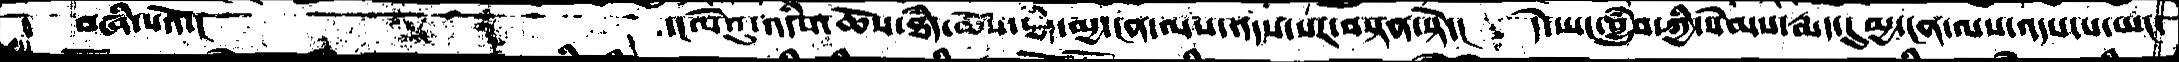བཞི་པའོ་།    ་།ལེའུ་འདིསཆོས་ཐཾད་ཆོས་ཐཾད་ཆོས་ཐཾད་མྱ་ངན་ལས་འདས་པར་བསྟན་སྟེ་། དེ་ཡང་བྱུཾབ་ཀྱི་སེམས་རྨད་དུ་མྱ་ངན་ལས་འདས་པ་མང་
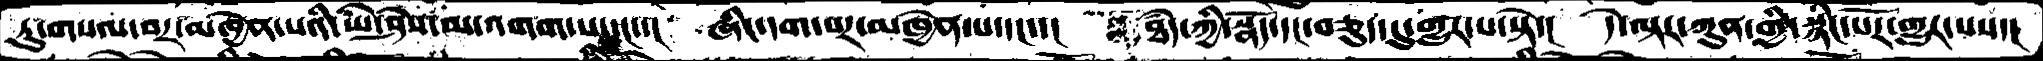ཏུ་གསལ་བར་མཁྱེན་པའི་ཡེ་ཤེས་མ་འགག་པ་དང་་།  ཞིང་དག་པར་མཁྱེན་པ་དང་་།  ཐཾད་ཀྱི་སྣོད་དང་བཅུད་དུ་གྱུར་པ་སྟེ་།  དེ་ལྟར་ཀུན་གྱི་སྙིང་པོར་གྱུར་པས་།
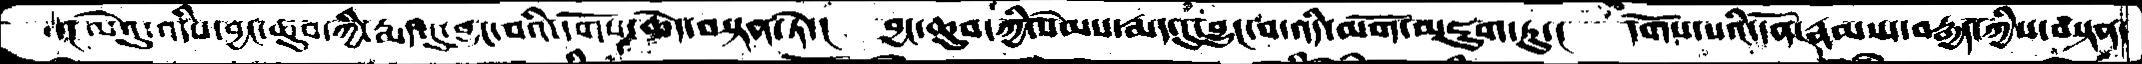་།ལེའུ་འདིས་བྱང་ཆུབ་ཀྱི་རྨད་དུ་བྱུང་བའི་དགོས་ཆེད་བསྟན་ཏེ་། བྱང་ཆུབ་ཀྱི་སེམས་རྨད་དུ་བྱུང་བ་འདི་མགོ་མཇུག་ཏུ་།  དགོས་པའི་དོན་རྣམས་བརྒྱད་ཀྱིས་བསྟན་
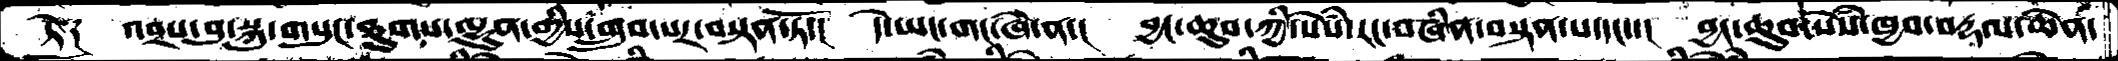ཏེ༑  འབྲས་བུ་སྐུ་གསུང་ཐུགས་ལྷུན་གྱིས་གྲུབ་པར་བསྟན་ཏོ་།  དེ་ཡང་གང་ཞེ་ན་།  བྱང་ཆུབ་ཀྱི་སེསཾ་རང་བཞིན་བསྟན་པ་དང་་།  བྱང་ཆུབ་སེསཾ་ཁྱབ་བརྡལ་ཆེན་
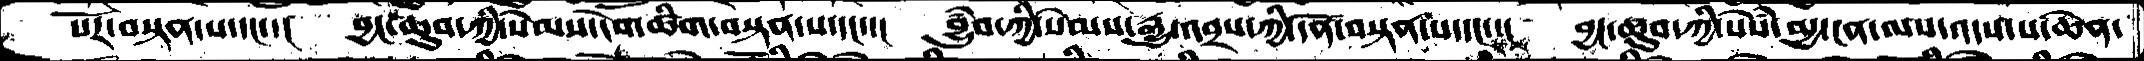པོར་བསྟན་པ་དང་་།  བྱང་ཆུབ་ཀྱིི་སེམས་དེག་ཚིག་བསྟན་པ་དང་་།  བྱུཾབ་ཀྱི་སེམས་རྒྱུ་འབྲས་ཀྱི་དོན་བསྟན་པ་དང་་།  བྱང་ཆུབ་ཀྱི་སེསཾ་མྱ་ངན་ལས་འདས་པ་ཆེན་
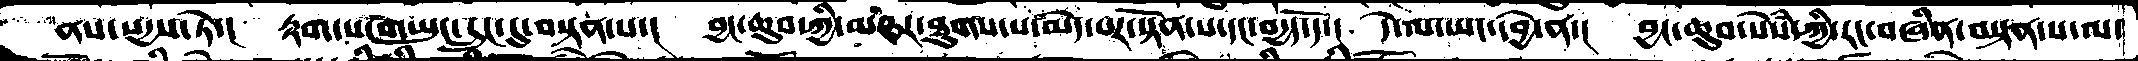ནས་སདྱས་ཏེ་།  རྟག་པ་གཡུང་དྲུང་དུ་བསྟན་པ་།  བྱང་ཆུབ་ཀྱི་མཐར་ཐུགས་པ་མེད་པར་སྟོན་པ་དང་བདྱད་དོ་།  དེ་ལ་ཡང་དབྱེ་ན་།  བྱང་ཆུབ་སེསཾ་ཀྱི་རང་བཞིན་བསྟན་པ་ལ་
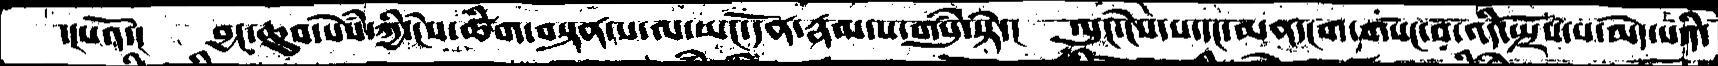་།པའོ་།   བྱང་ཆུབ་སེསཾ་ཀྱི་ངེས་ཚིག་བསྟན་པ་ལ་ཡང་དོན་རྣམ་པ་གསུཾ་སྟེ་།  ལུང་ངེས་པ་དང་མན་ངག་གསང་བ་འདི་སྤྲོས་པ་མེད་པའི་
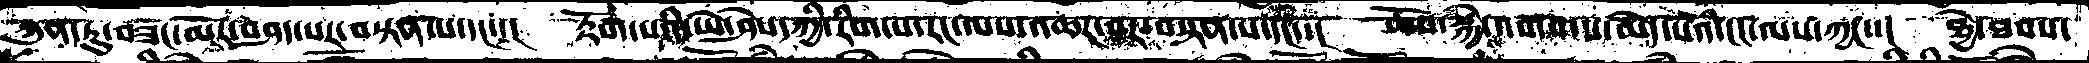ཀུན་ཏུ་བཟང་མོར་བཤད་པར་བསྟན་པ་དང་།  རྟོག་པའི་ཡེ་ཤེས་ཀྱི་རིག་པ་རང་ལས་འཆར་བར་བསྟན་པ་དང་།  ཆོས་སྐྱེ་འགག་པ་མེད་པའི་ངང་ལས་ཀྱང་།  ཐྱེ་ཐབས་
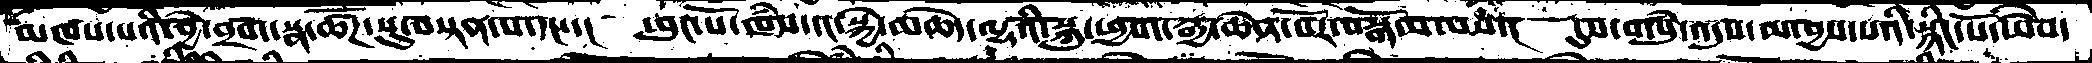མཁས་པའི་བྱེ་བྲག་སྣ་ཚོཌ་སུ་བསྟན་པ་དང་།  ཕུང་པོ་ཁཾས་དང་སྐྱེ་མཆེད་ལྷའི་སྐུ་ཕྱག་རྒྱ་ཆེན་པོར་བསྒོམ་པས་།  དུས་གསུཾ་འདུས་མ་བྱས་པའི་སྙིང་པོ་ཡེསེ་
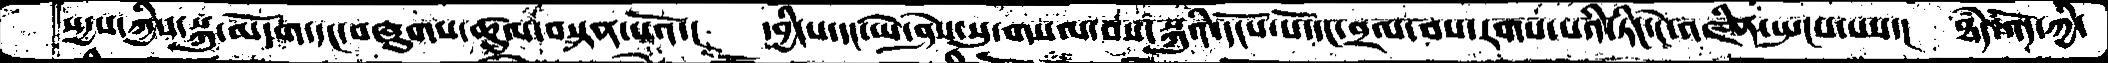སདྱས་ཀྱིས་སྐུ་མདོག་དང་བཞུགས་ཚུལ་བསྟན་པའོ་།  དབྱིངས་དང་ཡེ་ཤེས་སུ་གསལ་བས་སྐུའི་དངོས་པོ་དང་བྲལ་བས་རགས་པའི་ཏིང་ངེ་འཛིན་སྤངས་པས་།  ཐཾད་འོད་ཀྱི་
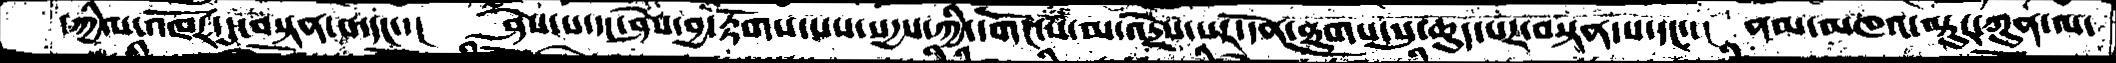དཀྱིལ་འཁོར་དུ་བསྟན་པ་དང་།  ཤེས་པ་དང་ཤེས་བྱ་རྟོགས་པས་སདྱས་ཀྱི་དགོང་པ་མ་འདྲེས་པར་དོན་ཐུགས་སུ་ཆུད་པར་བསྟན་པ་དང་།  ནམ་མཁའ་ལྟུར་ཀུན་ལ་
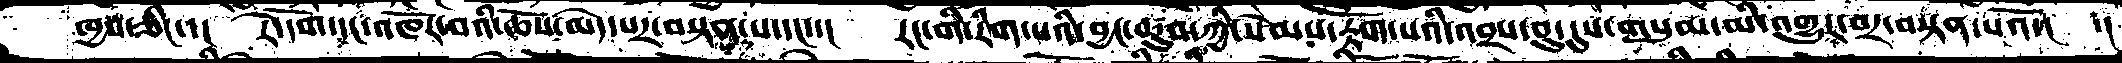ཁྱབ་ཅིང་།  རེ་དོག་དང་འཁོར་བའི་ཆོས་མེད་པར་བསྟན་པ་དང་།  རང་གི་རིག་པའི་བྱང་ཆུབ་ཀྱི་སེམས་རྟོག་པའི་འབྲས་བུ་དུས་གསུམ་མི་འགྱུར་བར་བསྟན་པའོ་།  ་།
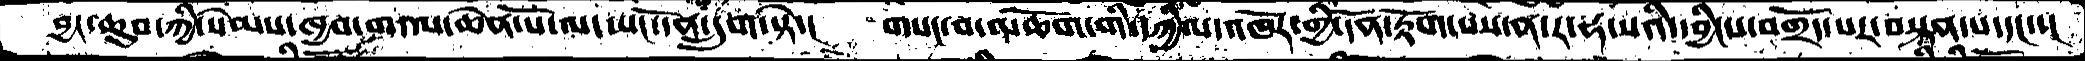བྱང་ཆུབ་ཀྱི་སེམས་ཁྱབ་གདལ་ཆེན་པོ་ལ་ཡང་དོན་དྲུག་སྟེ་།  གསང་བ་མཆོག་གི་དཀྱིལ་འཁོར་གྱི་དོན་རྟོག་པས་ན་ར་ཧ་སའི་དབྱིངས་བགྲོད་པར་བསྟན་པ་དང་་།
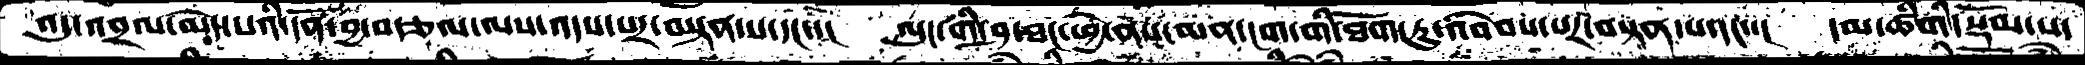འདུ་འབྲལ་མེད་པའི་དོན་བྱ་བརྩལ་ལས་འདས་པར་བསྟན་པ་དང་་།  ལུང་གི་ཤ་ཐང་ཕྱེ་ནས་མན་ངག་གི་ཐོག་ཏུ་འབེབས་པར་བསྟན་པ་དང་་།  དམ་ཚིགི་སྡོམ་པ་
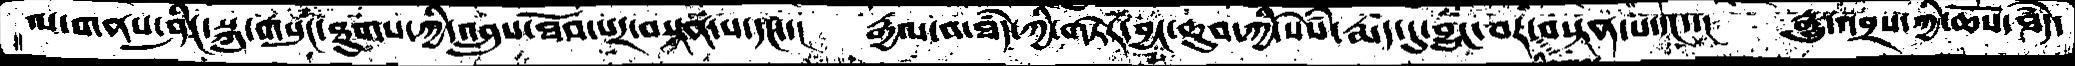ལ་གནས་ཤིང་སྐུ་གསུང་ཐུགས་ཀྱི་འབྲུས་ཐོབ་པར་བསྟན་པ་དང་་།  རྒྱལ་བ་ཐཾད་ཀྱི་གཏེར་བྱང་ཆུབ་སེཾས་རྨད་དུ་བྱུང་བར་བསྟན་པ་དང་་།  རྒྱུ་འབྲས་ཀྱི་ཆོས་ཐཾད་
